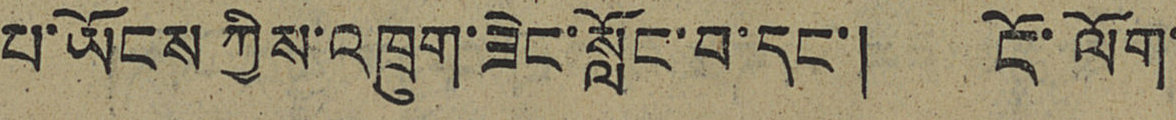པ་ཡོངས ཀྱིས་འཁྲུག་ཟེང་སློང་བ་དང་། ངོ་ལོག་
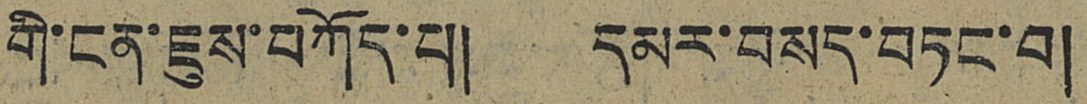གི་ངན་ཇུས་བཀོད་པ། དམར་བསད་བཏང་བ།
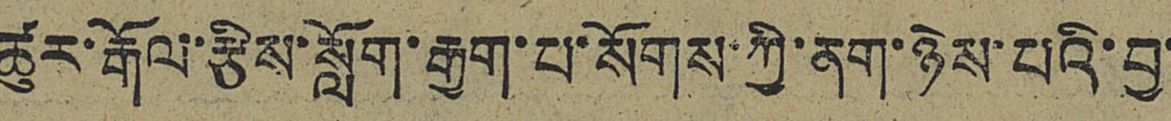ཚུར་རྒོལ་རྩིས་སློག་རྒྱག་པ་སོགས་ཀྱི་ནག་ཉེས་པའི་བྱ་
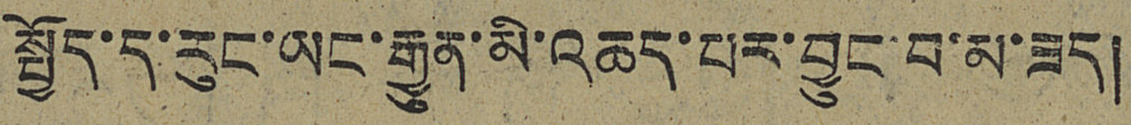སྤྱོད་ད་རུང་ཡང་རྒྱུན་མི་འཆད་པར་བྱུང་བ་མ་ཟད།
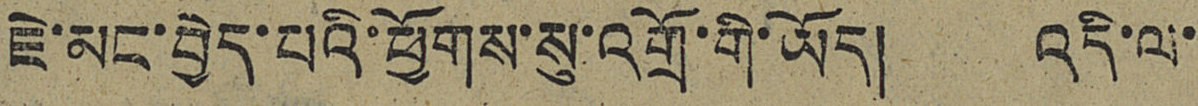ཇེ་མང་བྱེད་པའི་ཕྱོགས་སུ་འགྲོ་གི་ཡོད། འདི་ལ་
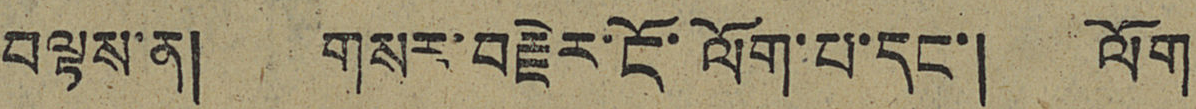བལྟས་ན། གསར་བརྗེར་ངོ་ལོག་པ་དང་། ལོག
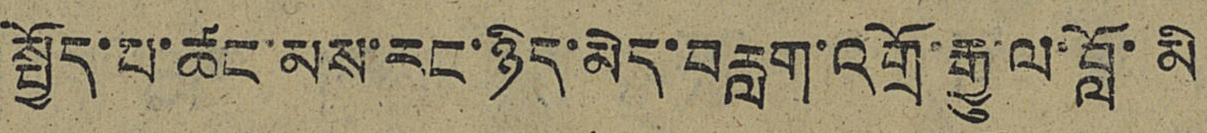སྤྱོད་པ་ཚང་མས་རང་ཉིད་མེད་བརླག་འགྲོ་རྒྱུ་ལ་བློ་མི
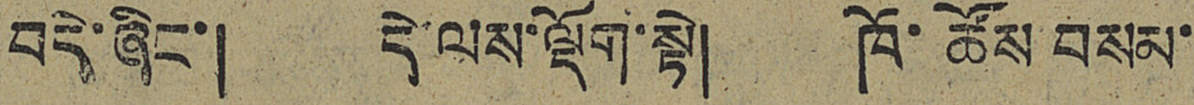བདེ་ཞིང་། དེ་ལས་ལྡོག་སྟེ། ཁོ་ཚོས་བསམ་
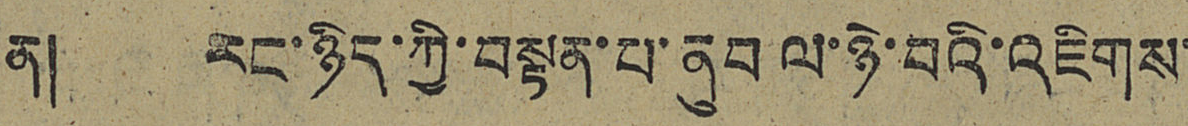ན། རང་ཉིད་ཀྱི་བསྟན་པ་ནུབ ལ་ཉེ་བའི་འཇིགས་
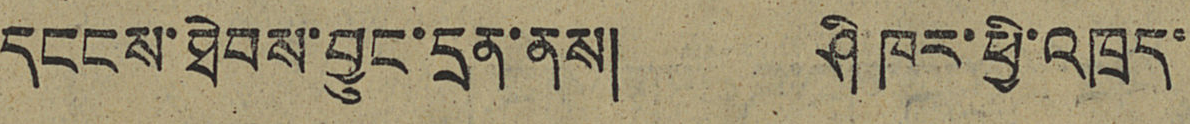དངངས་ཐེབས་བྱུང་དྲན་ནས། ཤི ཁར་ཕྱི་འཁྲད་
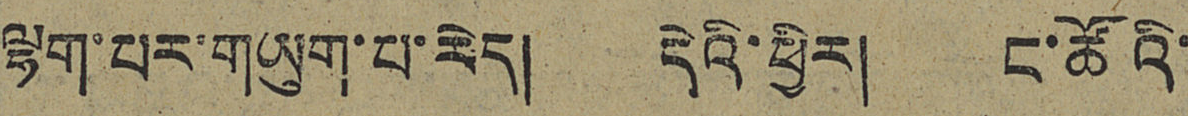ལྷག་པར་གཡུག་པ་རེད། དེའི་ཕྱིར། ང་ཚོའི་
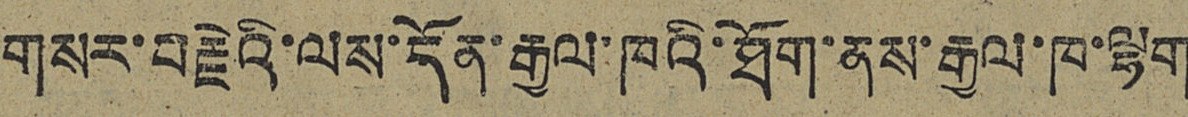གསར་བརྗེའི་ལས་དོན་རྒྱལ་ཁའི་ཐོག་ནས་རྒྱལ་ཁ་ལྷག
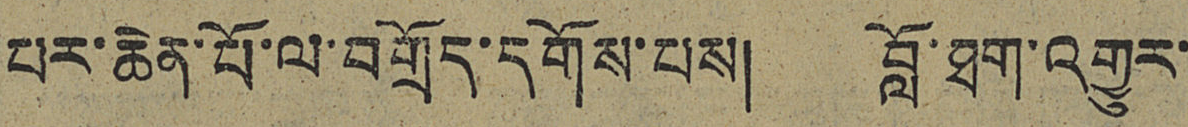པར་ཆེན་པོ་ལ་བགྲོད་དགོས་ལས། བློ་ཐག་འགྱུར་
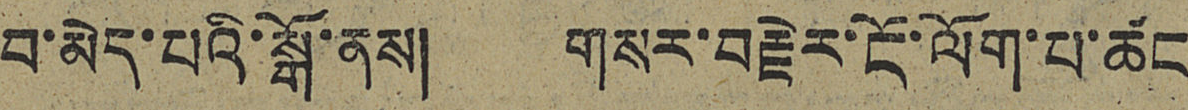བ་མེད་པའི་སྒོ་ནས། གསར་བརྗེར་ངོ་ལོག་པ་ཚང
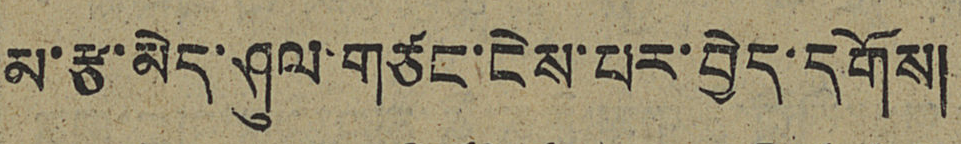མ་རྩ་མེད་ཤུལ་གཙང་ངེས་པར་བྱེད་དགོས།
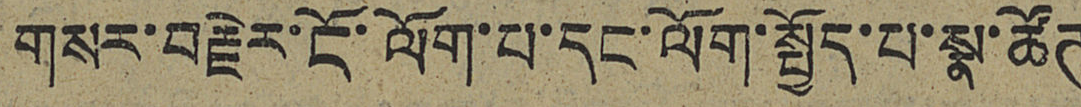གསར་བརྗེར་ངོ་ལོག་པ་དང་ལོག་སྤྱོད་པ་ཚོཊ
